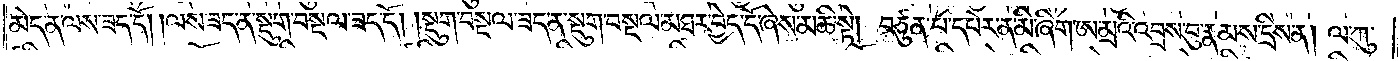མེད་ན་ལས་ཟད་དོ། །ལས་ཟད་ན་སྡུག་བསྔལ་ཟད་དོ། །སྡུག་བསྔལ་ཟད་ན་སྡུག་བསྔལ་མཐར་བྱེད་དོ་ཞེས་མཆི་སྟེ། བཙུན་པ་དཔེར་ན་མི་ཞིག་ཨ་མྲའི་འབྲས་བུ་རྣམས་དྲིས་ན། ལ་ཀུ་
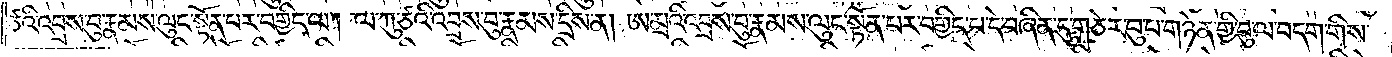ཙའི་འབྲས་བུ་རྣམས་ལུང་སྟོན་པར་བགྱིད་ལ། ལ་ཀུ་ཙའི་འབྲས་བུ་རྣམས་དྲིས་ན། ཨ་མྲའི་འབྲས་བུ་རྣམས་ལ་ལུང་སྟོན་པར་བགྱིད་པ་དེ་བཞིན་དུ་གཅེར་བུ་པ་གཉེན་གྱི་བུ་ལ་བདག་གིས་
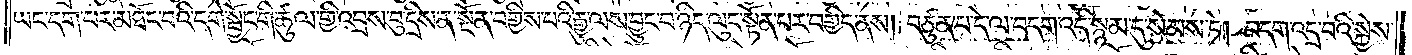ཡང་དག་པར་མཐོང་བའི་དགེ་སྦྱོང་གི་ཚུལ་གྱི་འབྲས་བུ་དྲིས་ན་སྔོན་བགྱིས་པའི་རྒྱུ་ལས་བྱུང་བ་ཉིད་ལུང་སྟོན་པར་བགྱིད་ནས། བཙུན་པ་དེ་ལ་བདག་འདི་སྙམ་དུ་སེམས་ཏེ། བདག་འདྲ་བའི་སྐྱེས་
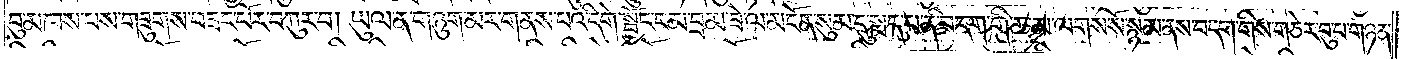བུ་མཁས་པས་གཟུགས་བཟང་པོར་བཀུར་བ། ཡུལ་ན་གཉུག་མར་གནས་པའི་དགེ་སྦྱོང་ངམ་བྲམ་ཟེ་ལ་མངོན་སུམ་དུ་སྨད་པ་ནི་བདག་གི་ཆ་མ་ལགས་སོ་སྙམ་ནས་བདག་གིས་གཅེར་བུ་པ་གཉན་
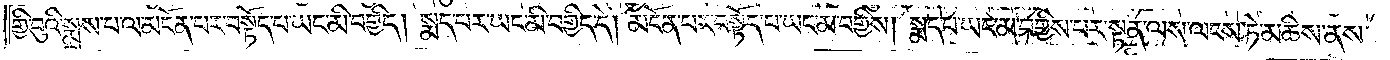གྱི་བུའི་སྨྲས་བ་ལ་མངོན་པར་བསྟོད་པ་ཡང་མི་བགྱིད། སྨད་པར་ཡང་མི་བགྱིད་དེ། མངོན་པར་བསྟོད་པ་ཡང་མ་བགྱིས། །སྨད་པ་ཡང་མ་བགྱིས་པར་སྟན་ལས་ལངས་ཏེ་མཆིས་ནས་
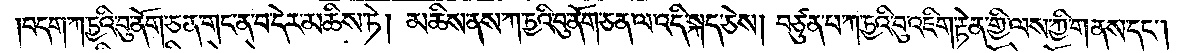།བདག་ཀ་ཏྱའི་བུ་ནོག་ཅན་གང་ན་བ་དེར་མཆིས་ཏེ། མཆིས་ནས་ཀ་ཏྱའི་བུ་ནོག་ཅན་ལ་འདི་སྐད་ཅེས། བཙུན་པ་ཀ་ཏྱའི་བུ་འཇིག་རྟེན་གྱི་ལས་ཀྱི་གནས་དང༌།
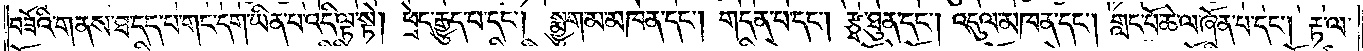བཟོའི་གནས་ཐ་དད་པ་གང་དག་ཡིན་པ་འདི་ལྟ་སྟེ། ཕྲེང་རྒྱུད་པ་དང༌། སྨྱུག་མ་མཁན་དང༌། གདན་པ་དང༌། རྩྭ་ཐུན་དང༌། འདུལ་མཁན་དང༌། གླང་པོ་ལ་ཞོན་པ་དང༌། རྟ་ལ་
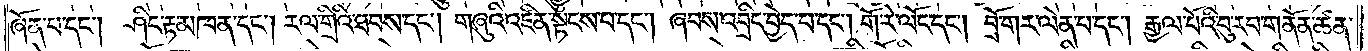ཞོན་པ་དང༌། ཤིང་རྟ་མཁན་དང༌། རལ་གྲིའི་ཐབས་དང༌། གཞུའི་འཛིན་སྟངས་པ་དང༌། ཞབས་འབྲིང་བྱེད་པ་དང༌། གོ་རེ་ལོང་དང༌། བྲོ་གར་ལེན་པ་དང༌། རྒྱལ་པོའི་བུ་རབ་གནོན་ཚན་
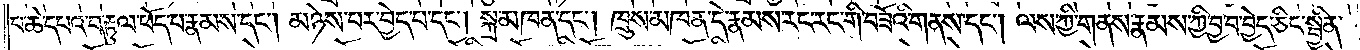པ་ཆེ་དཔའ་བརྟུལ་ཕོད་པ་རྣམས་དང༌། མཉེས་པར་བྱེད་པ་དང༌། སྐྲ་མཁན་དང༌། ཁྲུས་མཁས་དེ་རྣམས་རང་རང་གི་བཟོའི་གནས་དང༌། ལས་ཀྱི་གནས་རྣམས་ཀྱི་བྱ་བ་བྱེད་ཅིང་སྦྱིན་
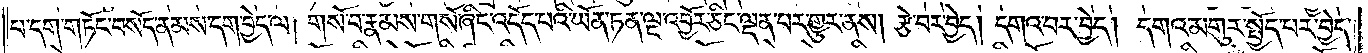པ་དག་གཏོང་བསོད་ནམས་དག་བྱེད་ལ། གསོ་བ་རྣམས་གསོ་ཞིང་འདོད་པའི་ཡོན་ཏན་ལྔ་འབྱོར་ཅིང་ལྡན་པར་གྱུར་ནས། རྩེ་བར་བྱེད། དགའ་བར་བྱེད། དགའ་མགུར་སྤྱོད་པར་བྱེད་
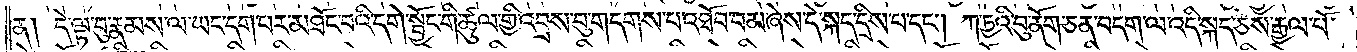ན༑ དེ་ལྟ་བུ་རྣམས་ལ་ཡང་དག་པར་མཐོང་བའི་དགེ་སྦྱོང་གི་ཚུལ་གྱི་འབྲས་བུ་གདགས་པ་འཐོབ་བམ་ཞེས་དེ་སྐད་དྲིས་པ་དང༌། ཀ་ཏྱའི་བུ་ནོག་ཅན་བདག་ལ་འདི་སྐད་རྒྱལ་པོ་
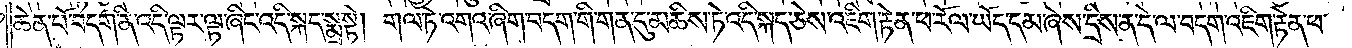ཆེན་པོ་བདག་ནི་འདི་ལྟར་ལྟ་ཞིང་འདི་སྐད་སྨྲ་སྟེ། གལ་ཏེ་འགའ་ཞིག་བདག་གི་གན་དུ་མཆིས་ཏེ་འདི་སྐད་ཅེས་འཇིག་རྟེན་ཕ་རོལ་ཡོད་དམ་ཞེས་དྲིས་ན་དེ་ལ་བདག་འཇིག་རྟེན་ཕ་
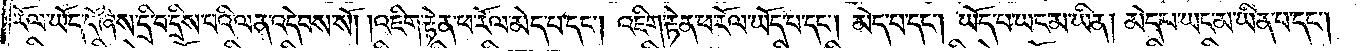རོལ་ཡོད་དོ་ཞེས་དྲི་བ་དྲིས་པའི་ལན་འདེབས་སོ། །འཇིག་རྟེན་ཕ་རོལ་མེད་པ་དང༌། འཇིག་རྟེན་ཕ་རོལ་ཡོད་པ་དང༌། མེད་པ་དང༌། ཡོད་པ་ཡང་མ་ཡིན། མེད་པ་ཡང་མ་ཡིན་པ་དང༌།<gap>དེ་
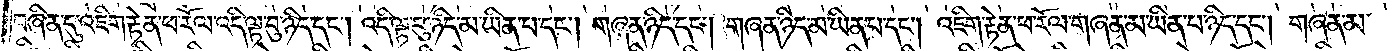བཞིན་དུ་འཇིག་རྟེན་ཕ་རོལ་འདི་ལྟ་བུ་ཉིད་དང༌། འདི་ལྟ་བུ་ཉིད་མ་ཡིན་པ་དང༌། གཞན་ཉིད་དང༌། གཞན་ཉིད་མ་ཡིན་པ་དང༌། འཇིག་རྟེན་ཕ་རོལ་གཞན་མ་ཡིན་པ་ཉིད་དང༌། གཞན་མ་
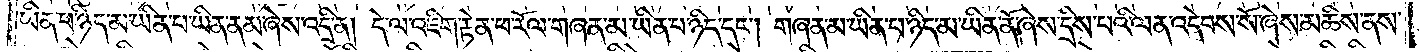ཡིན་པ་ཉིད་མ་ཡིན་པ་ཡིན་ནམ་ཞེས་འདྲི་ན། དེ་ལ་འཇིག་རྟེན་ཕ་རོལ་གཞན་མ་ཡིན་པ་ཉིད་དང༌། གཞན་མ་ཡིན་པ་ཉིད་མ་ཡིན་ནོ་ཞེས་དྲིས་པའི་ལན་འདེབས་སོ་ཞེས་མཆིས་ནས་
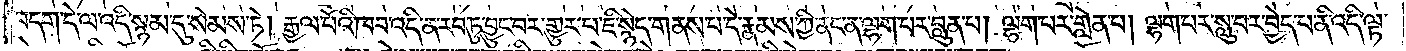བདག་དེ་ལ་འདི་སྙམ་དུ་སེམས་ཏེ། རྒྱལ་པོའི་ཁབ་འདི་ན་རབ་ཏུ་བྱུང་བར་གྱུར་པ་ཇི་སྙེད་གནས་དེ་རྣམས་ཀྱི་ནང་ནས་ལྷག་པར་བླུན་པ། ལྷག་པར་གླེན་པ། ལྷག་པར་སླུ་བར་བྱེད་པ་ནི་འདི་ལྟ་
